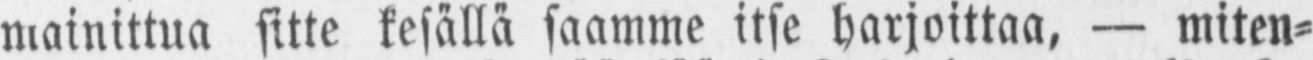mainittua sitte kesällä saamme itse harjoittaa, — miten-
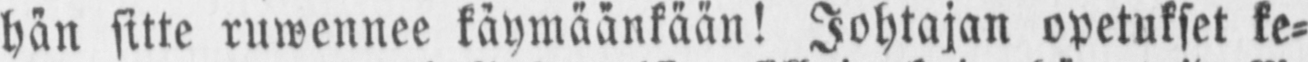hän sitte ruwennee käymäänkään! Johtajan opetukset ke-
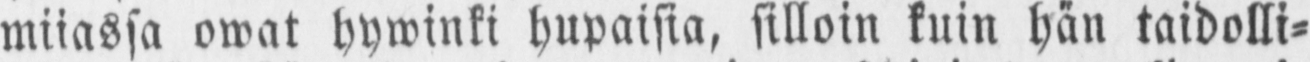miiassa owat hywinki hupaisia, silloin kuin hän taidolli-
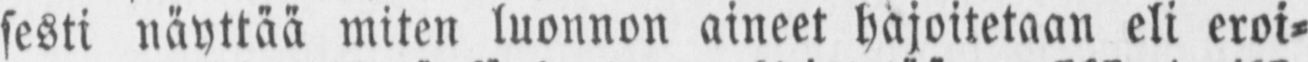sesti näyttää miten luonnon aineet hajoitetaan eli eroi-
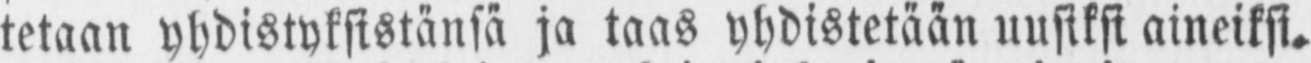ttaan yhdistyksistänsä ja taas yhdistetään uusiksi aineiksi.
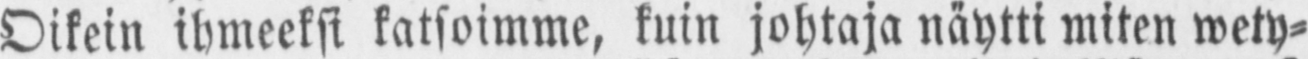Oikein ihmeeksi katsoimme, kuin johtaja näytti miten wety-
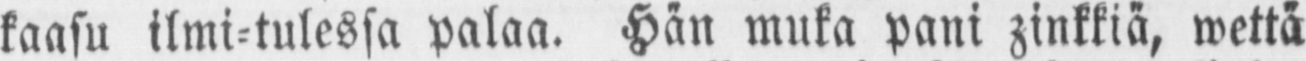kaasu ilmi-tulessa palaa. Hän muka pani zinkkiä, wettä
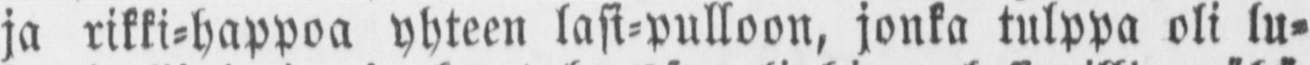ja rikki-happoa yhteen lasi-pulloon, jonka tulppa oli lu-
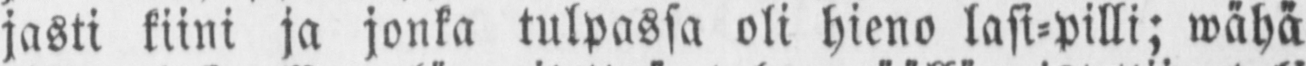jasti kiini ja jonka tulpassa oli hieno lasi-pilli; wähä
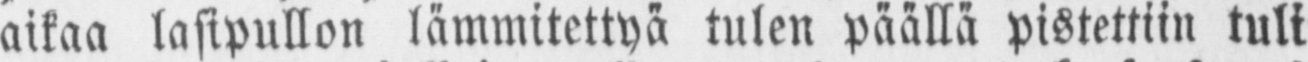aikaa lasipullon lämmitettyä tulen päällä pistettiin tuli
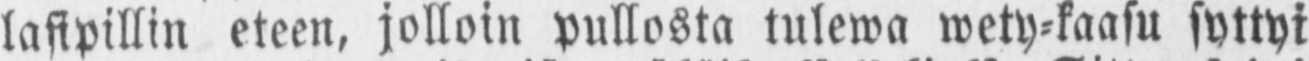lasipillin eteen, jolloin pullosta tulewa wety-kaasu syttyi
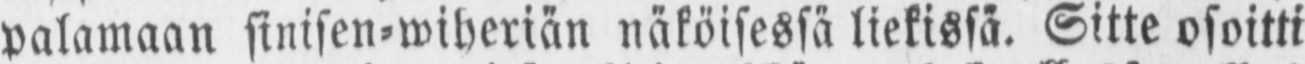valamaan sinisen-wiheriän näköisessä liekissä. Sitte osoitti
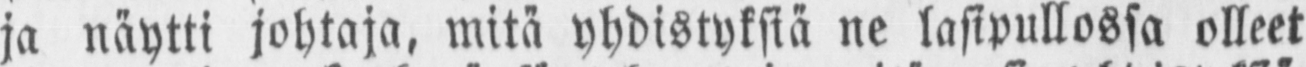ja näytti johtaja, mitä yhdistyksiä ne lasipullossa olleet
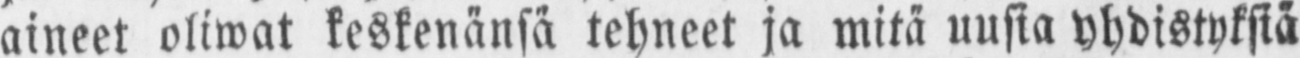aineet oliwat keskenänsä tehneet ja mitä uusia yhdistyksiä
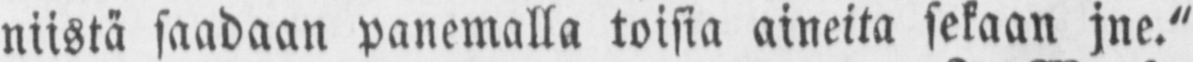niistä saadaan panemalla toisia aineita sekaan jne."
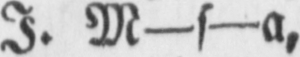I. M-s-a,
